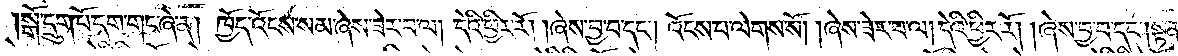སྒོ་དྲུག་པོ་དག་གང་ཞེ་ན། ཁྱོད་འོངས་སམ་ཞེས་ཟེར་བ་ལ། དེའི་ཕྱིར་རོ། །ཞེས་བྱ་བ་དང༌། འོངས་པ་ལེགས་སོ། །ཞེས་ཟེར་བ་ལ། དེའི་ཕྱིར་རོལ། །ཞེས་བྱ་བ་དང༌། སྟན་
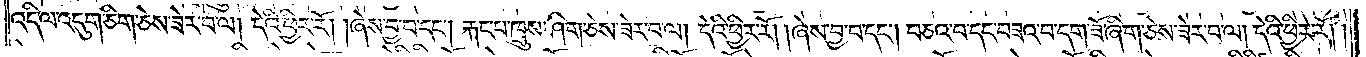འདི་ལ་འདུག་ཅིག་ཅེས་ཟེར་བ་ལ། དེའི་ཕྱིར་རོ། །ཞེས་བྱ་བ་དང༌། རྐང་པ་ཁྲུས་ཤིག་ཅེས་ཟེར་བ་ལ། དེའི་ཕྱིར་རོ། །ཞེས་བྱ་བ་དང༌། བཅའ་བ་དང་བཟའ་བ་དག་ཟོ་ཞིག་ཅེས་ཟེར་བ་ལ། དེའི་ཕྱིར་རོ། །
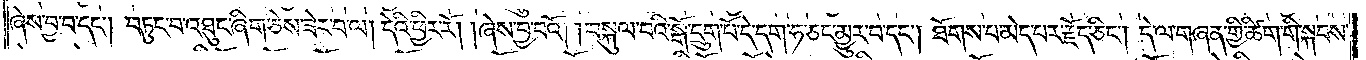ཞེས་བྱ་བ་དང༌། བཏུང་བ་འཐུང་ཞིག་ཅེས་ཟེར་བ་ལ། དེའི་ཕྱིར་རོ། །ཞེས་བྱ་བའོ། །བསྐུལ་བའི་སྒོ་དྲུག་པོ་དེ་དག་ཧ་ཅང་མྱུར་བ་དང༌། ཐོགས་པ་མེད་པར་རྗོད་ཅིང༌། དེ་ལ་གཞན་གྱི་ཚིག་གི་སྐབས་
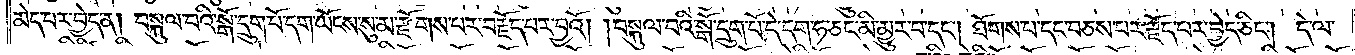མེད་པར་བྱེད་ན། བསྐུལ་བའི་སྒོ་དྲུག་པོ་དག་ཡོངས་སུ་མ་རྫོགས་པར་བརྗོད་པར་བྱའོ། །བསྐུལ་བའི་སྒོ་དྲུག་པོ་དེ་དག་ཧ་ཅང་མི་མྱུར་བ་དང༌། ཐོགས་པ་དང་བཅས་པར་རྗོད་པར་བྱེད་ཅིང༌། དེ་ལ་
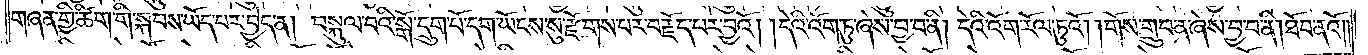གཞན་གྱི་ཚིག་གི་སྐབས་ཡོད་པར་བྱེད་ན། བསྐུལ་བའི་སྒོ་དྲུག་པོ་དག་ཡོངས་སུ་རྫོགས་པར་བརྗོད་པར་བྱའོ། །དེའི་འོག་ཏུ་ཞེས་བྱ་བ་ནི། དེའི་འོག་རོལ་ཏུའོ། །གོས་གྲུབ་ན་ཞེས་བྱ་བ་ནི། ཐོབ་ནའོ། །
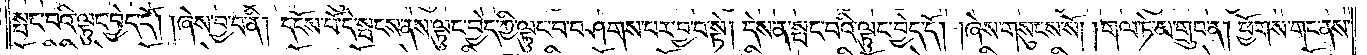སྤང་བའི་ལྟུང་བྱེད་དོ། །ཞེས་བྱ་བ་ནི། དངོས་པོ་དེ་སྤངས་ནས་ལྟུང་བྱེད་ཀྱི་ལྟུང་བ་བཤགས་པར་བྱ་བ་སྟེ། དེས་ན་སྤང་བའི་ལྟུང་བྱེད་དོ། །ཞེས་གསུངས་སོ། །གལ་ཏེ་མ་གྲུབ་ན། ཕྱོགས་གང་ནས་
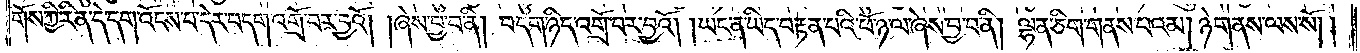གོས་ཀྱི་རིན་དེ་དག་འོངས་པ་དེར་བདག་འགྲོ་བར་བྱའོ། །ཞེས་བྱ་བ་ནི། བདག་ཉིད་འགྲོ་བར་བྱའོ། །ཡང་ན་ཡིད་བརྟན་པའི་ཕོ་ཉ་ལ་ཞེས་བྱ་བ་ནི། ལྷན་ཅིག་གནས་པའམ། ཉེ་གནས་ལས་སོ།
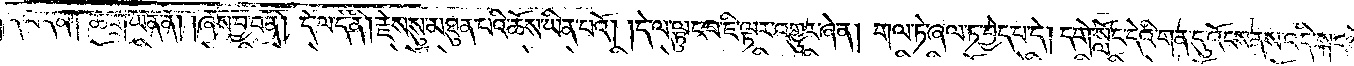དེ་ལ་དེ་ནི། ཆོ་ག་ཡིན་ནོ། །ཞེས་བྱ་བ་ནི། དེ་ལ་དེ་ནི། རྗེས་སུ་མཐུན་པའི་ཆོས་ཡིན་པའོ། །དེ་ལ་ལྟུང་བ་ཇི་ལྟར་འགྱུར་ཞེ་ན། གལ་ཏེ་ཞལ་ཏ་བྱེད་པ་དེ། དགེ་སློང་དེའི་གན་དུ་འོངས་ནས་འདི་སྐད་ཅེས་
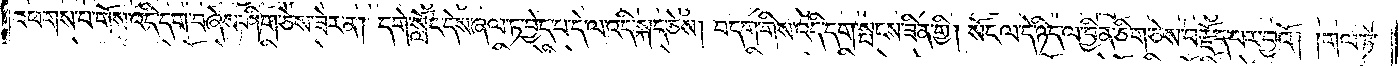འཕགས་པ་གོས་འདི་དག་བཞེས་ཤིག་ཅེས་ཟེར་ན། དགེ་སློང་དེས་ཞལ་ཏ་བྱེད་པ་དེ་ལ་འདི་སྐད་ཅེས། བདག་གིས་འདི་དག་སྤངས་ཟིན་གྱི། སོང་ལ་དེ་ཉིད་ལ་བྱིན་ཅིག་ཅེས་བརྗོད་པར་བྱའོ། །གལ་ཏེ་
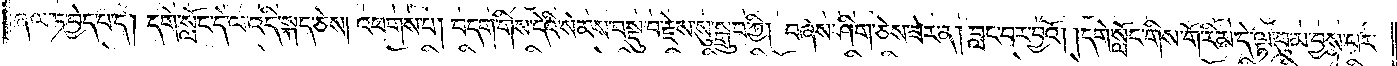ཞལ་ཏ་བྱེད་པ་ད། དགེ་སློང་དེ་ལ་འདི་སྐད་ཅེས། འཕགས་པ། བདག་གིས་དེའི་སེམས་བསྡུ་བ་རྗེས་སུ་སྒྲུབ་ཀྱི། བཞེས་ཤིག་ཅེས་ཟེར་ན། བླང་བར་བྱའོ། །དགེ་སློང་གིས་གོ་རིམ་དེ་ལྟ་བུ་མ་བྱས་པར་
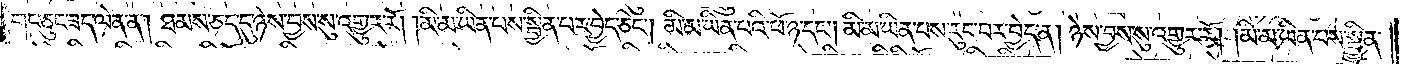གང་ཅུང་ཟད་ལེན་ན། ཐམས་ཅད་དུ་ཉེས་བྱས་སུ་འགྱུར་རོ། །མི་མ་ཡིན་པས་སྦྱིན་པར་བྱེད་ཅིང༌། མི་མ་ཡིན་པའི་ཕོ་ཉ་དང༌། མི་མ་ཡིན་པས་རུང་བར་བྱེད་ན། ཉེས་བྱས་སུ་འགྱུར་རོ། །མི་མ་ཡིན་པས་སྦྱིན་
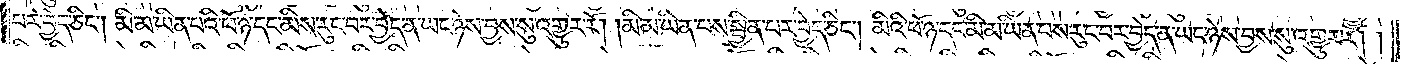པར་བྱེད་ཅིང༌། མི་མ་ཡིན་པའི་ཕོ་ཉ་དང་མིས་རུང་བར་བྱེད་ན་ཡང་ཉེས་བྱས་སུ་འགྱུར་རོ། །མི་མ་ཡིན་པས་སྦྱིན་པར་བྱེད་ཅིང༌། མིའི་ཕོ་ཉ་དང་མི་མ་ཡིན་པས་རུང་བར་བྱེད་ན་ཡང་ཉེས་བྱས་སུ་འགྱུར་རོ། །
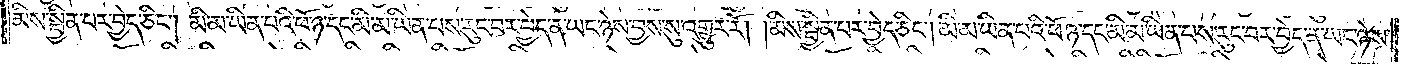མིས་སྦྱིན་པར་བྱེད་ཅིང༌། མི་མ་ཡི་པའི་ཕོ་ཉ་དང་མི་མ་ཡིན་པས་རུང་བར་བྱེད་ན་ཡང་ཉེས་བྱས་སུ་འགྱུར་རོ། །མིས་སྦྱིན་པར་བྱེད་ཅིང༌། མི་མ་ཡིན་པའི་ཕོ་ཉ་དང་མི་མ་ཡིན་པས་རུང་བར་བྱེད་ན་ཡང་ཉེས་
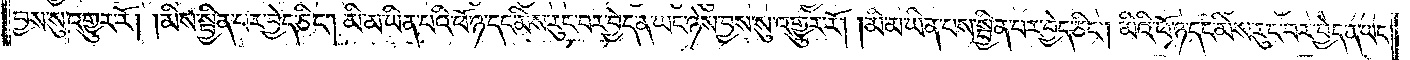བྱས་སུ་འགྱུར་རོ། །མིས་སྦྱིན་པར་བྱེད་ཅིང༌། མི་མ་ཡིན་པའི་ཕོ་ཉ་དང་མིས་རུང་བར་བྱེད་ན་ཡང་ཉེས་བྱས་སུ་འགྱུར་རོ། །མི་མ་ཡིན་པས་སྦྱིན་པར་བྱེད་ཅིང༌། མིའི་ཕོ་ཉ་དང་མིས་རུང་བར་བྱེད་ན་ཡང་
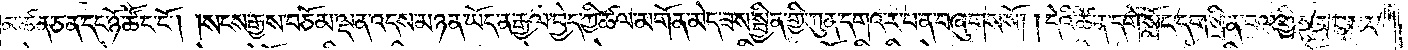མཚན་ཅན་དང་ཉོ་ཚོང་ངོ༌། །སངས་རྒྱས་བཅོམ་ལྡན་འདས་མཉན་ཡོད་ན་རྒྱལ་བྱེད་ཀྱི་ཚལ་མགོན་མེད་ཟས་སྦྱིན་གྱི་ཀུན་དགའ་ར་བ་ན་བཞུགས་སོ། །དེའི་ཚེ་ན་དགེ་སློང་དག་སྲིན་བལ་གྱི་སྟན་གསར་
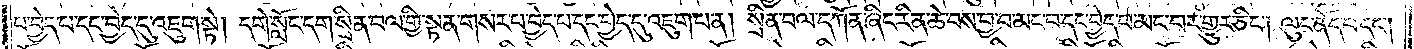པ་བྱེད་པ་དང་བྱེད་དུ་འཇུག་སྟེ། དགེ་སློང་དག་སྲིན་བལ་གྱི་སྟན་གསར་པ་བྱེད་པ་དང་བྱེད་དུ་འཇུག་པ་ན། སྲིན་བལ་དཀོན་ཞིང་རིན་ཆེ་བས་བྱ་བ་མང་བ་དང་བྱེད་པ་མང་བར་གྱུར་ཅིང༌། ལུང་ནོད་པ་དང༌།
